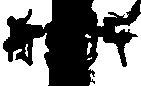བློ  སྐྱེད
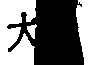大
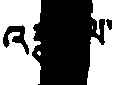འ  ལ་
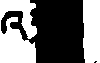འ
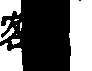客
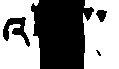འ  ་་
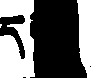ད
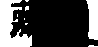藏
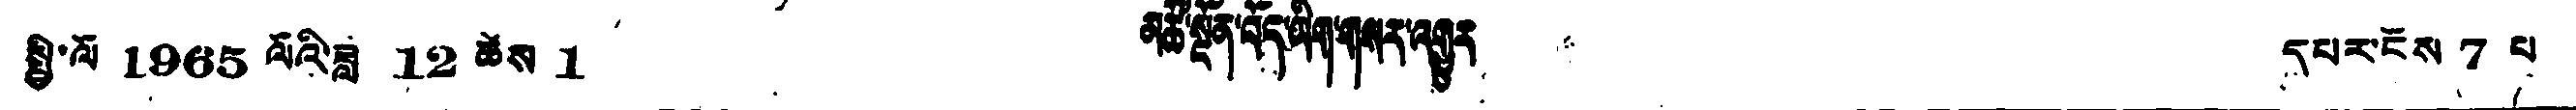སྤྱི་ལོ 1965 ལོའི་ཟླ་ 12 ཚེས 1 མཚོ་སྔོན་བོད་ཡིག་གསར་འགྱུར དཔར་ངོས 7 པ
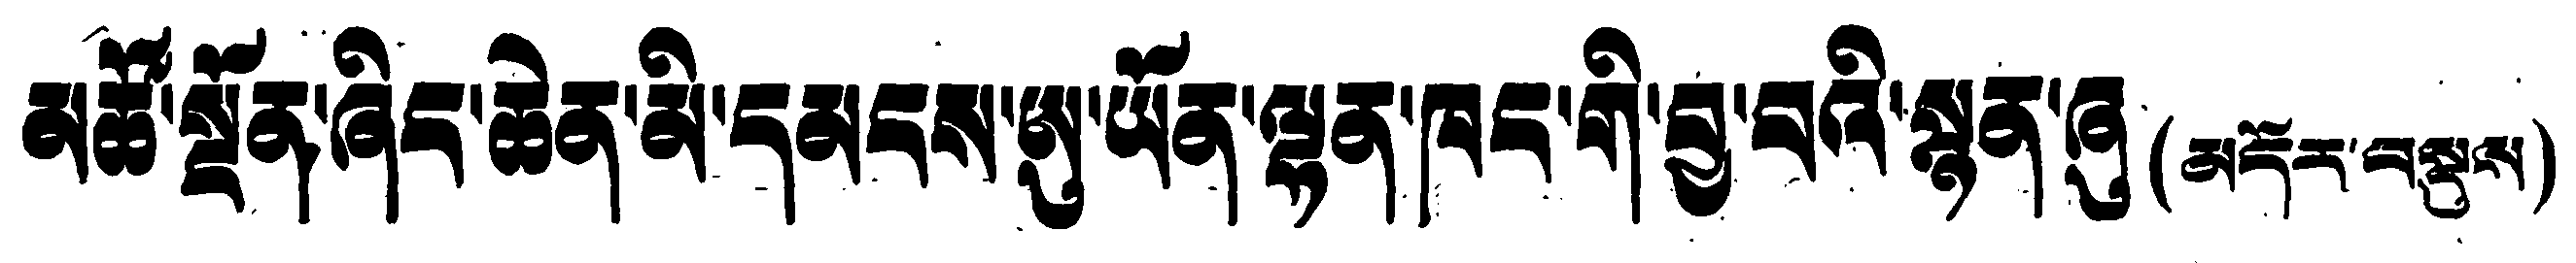མཚོ་སྔོན་ཞིང་ཆེན་མི་དམངས་ཨུ་ཡོན་ལྷན་ཁང་གི་བྱ་བའི་སྙན་ཞུ(མདོར་བསྡུས)
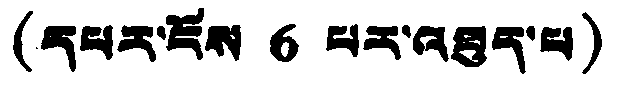(དཔར་ངོས 6 པར་འཐུད་པ)
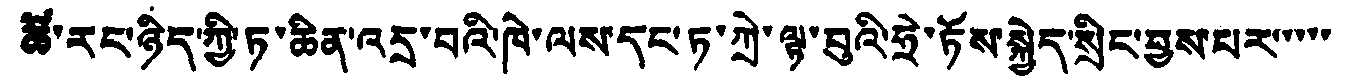ཚོ་རང་ཉིད་ཀྱི་ཏ་ཆིན་འདྲ་བའི་ཁེ་ལས་དང་ཏ་ཀྲེ་ལྟ་བུའི་ཧྲེ་ཏོས་སྐྱེད་སྲིང་བྱས་པར་་་་་
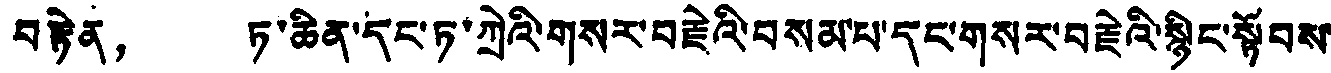བརྟེན， ཏ་ཆིན་དང་ཏ་ཀྲེའི་གསར་བརྗེའི་བསམ་པ་དང་གསར་བརྗེའི་སྙིང་སྟོབས་
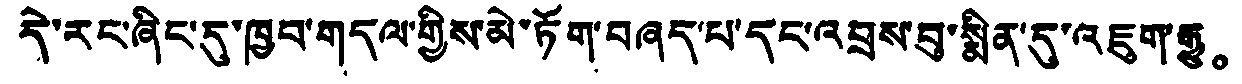དེ་རང་ཞིང་དུ་ཁྱབ་གདལ་གྱིས་མེ་ཏོག་བཞད་པ་དང་འབྲས་བུ་སྨིན་དུ་འཇུག་རྒྱུ。
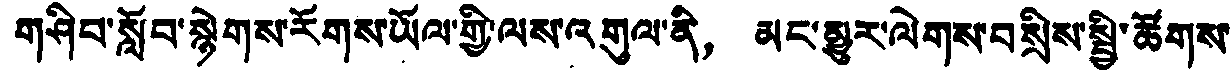གཤིབ་སློབ་སྙེགས་རོགས་ཡོལ་གྱི་ལས་འགུལ་ནི， མང་མྱུར་ལེགས་བསྲིས་སྤྱི་ཚོགས་
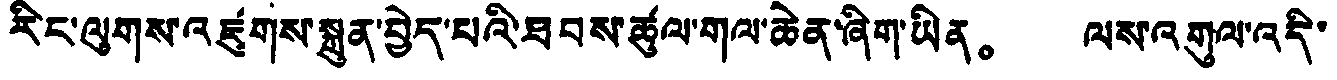རིང་ལུགས་འཛུགས་སྐྲུན་བྱེད་པའི་ཐབས་ཚུལ་གལ་ཆེན་ཞིག་ཡིན。 ལས་འགུལ་འདི་
